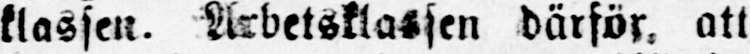klassen. Arbetsklassen därför, att
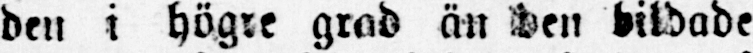den i högre grad än den bildade
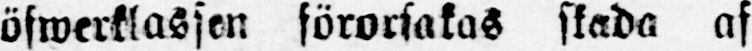öfwerklassen förorsakas skada af
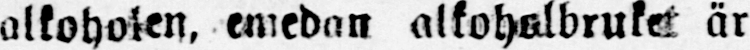alkoholen, emedan alkoholbruket är
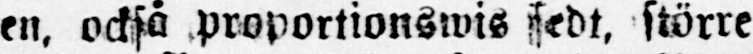en, också proportionswis sedt, större
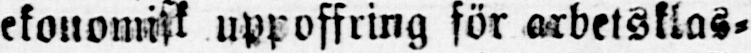ekonomisk uppoffring för arbetsklas-
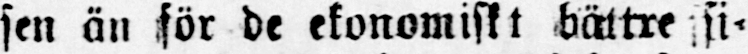sen än för de ekonomiskt bättre si-
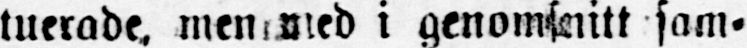tuerade, men med i genomsnitt sam-
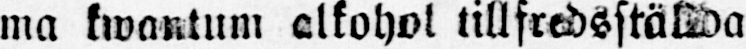ma kwantum alkohol tillfredsstälda
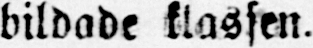bildade klassen.
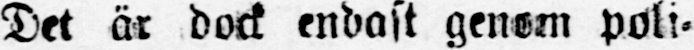Det är dock endast genom poli-
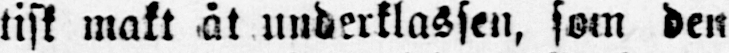tisk makt åt underklassen, som den-
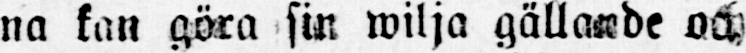na kan göra sin wilja gällande och
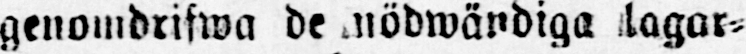genomdrifwa de nödwändiga lagar-
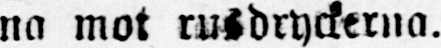na mot rusdryckerna.
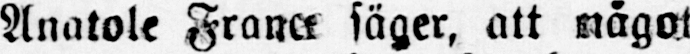Anatole France säger, att något
